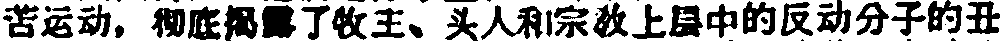苦运动，彻底揭露了牧主、头人和宗敎上层中的反动分子的主
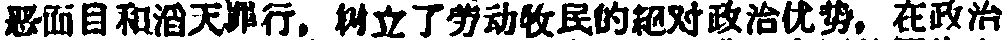恶面目和滔天罪行，树立了劳动牧民的絕对政治优势，在政治
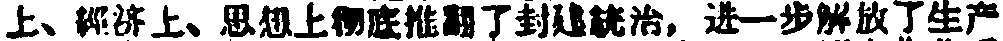上、經济上、思想上彻底推翻了封建統治，进一步解放了生产
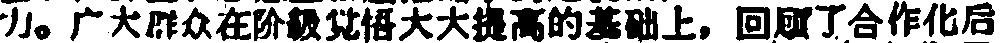力。广大群众在阶級覚悟大大提高的基础上，回顾了合作化后
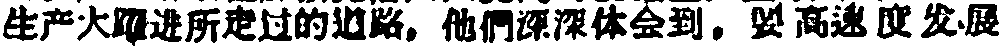生产大躍进所走过的道路，他們深深体会到，要高速度发展
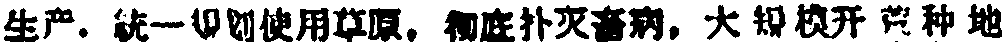生产，統一規划使用草原。彻底扑灭畜病，大規模开荒种地
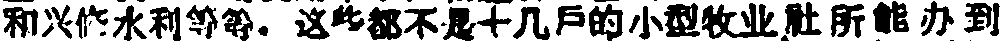和兴修水利等等。这些都不是十几戶的小型牧业社所能办到
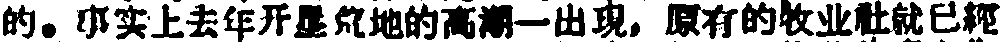的。事实上去年开垦荒地的高潮一出現，原有的牧业社就已經
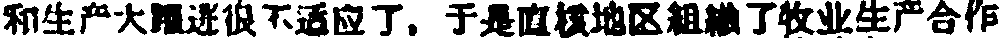和生产大躍进很不适应了，于是直核地区組織了牧业生产合作
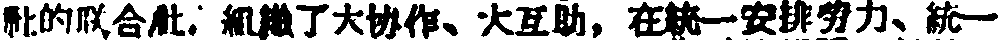社的联合社：組織了大协作、大互助，在統一安排劳力、統一
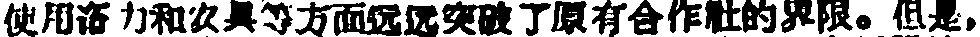使用畜力和农具等方面远远突破了原有合作社的界限。但是，
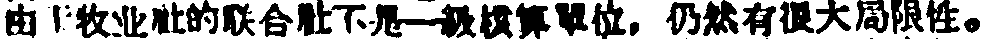由于牧业社的联合社下是一級核算單位，仍然有很大局限性。
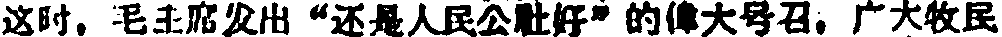这时，毛主席发出“还是人民公社好”的偉大号召，广大牧民
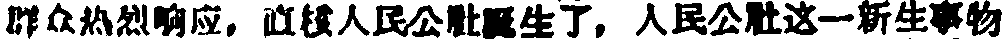群众热烈响应，直核人民公社誕生了，人民公社这一新生事物
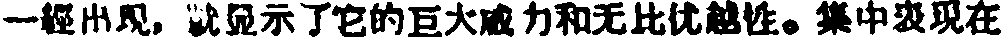一經出見，就显示了它的巨大威力和无比优越性。集中表現在
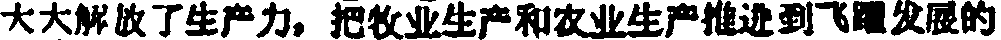大大解放了生产力，把牧业生产和农业生产推进到飞躍发展的
